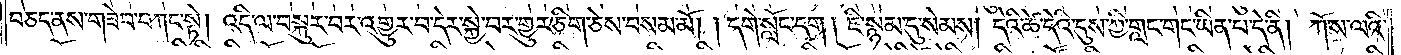བཅད་ནས་གཟེབ་བཀང་སྟེ། འདི་ལ་བསྐུར་བར་འགྱུར་བ་དེར་སྐྱེ་བར་གྱུར་ཅིག་ཅེས་བསམ་མོ། །དགེ་སློང་དག །ཇི་སྙམ་དུ་སེམས། དེའི་ཚེ་དེའི་དུས་ཀྱི་གླང་གང་ཡིན་པ་དེ་ནི། ཀོ་ས་ལའི་
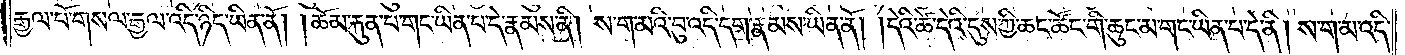རྒྱལ་པོ་གསལ་རྒྱལ་འདི་ཉིད་ཡིན་ནོ། །ཆོམ་རྐུན་པ་གང་ཡིན་པ་དེ་རྣམས་ནི། ས་ག་མའི་བུ་འདི་དག་རྣམས་ཡིན་ནོ། །དེའི་ཚེ་དེའི་དུས་ཀྱི་ཆང་ཚོང་གི་ཆུང་མ་གང་ཡིན་པ་དེ་ནི། ས་ག་མ་འདི་
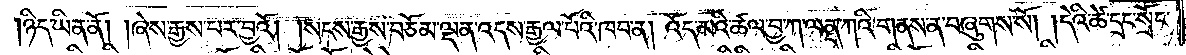།ཉིད་ཡིན་ནོ། །ཞེས་རྒྱས་པར་བྱའོ། །སངས་རྒྱས་བཅོམ་ལྡན་འདས་རྒྱལ་པོའི་ཁབ་ན། འོད་མའི་ཚལ་བྱ་ཀ་ལནྡ་ཀའི་གནས་ན་བཞུགས་སོ། །དེའི་ཚེ་དྲང་སྲོང་
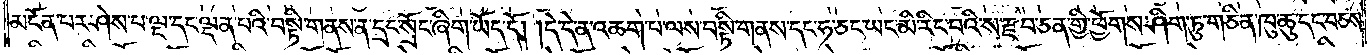མངོན་པར་ཤེས་པ་ལྔ་དང་ལྡན་པའི་བསྟི་གནས་ན་དྲང་སྲོང་ཞིག་ཡོད་དོ། །དེ་དེ་ན་འཆག་པ་ལས་བསྟི་གནས་དང་ཧ་ཅང་ཡང་མི་རིང་བའི་ས་རྫབ་ཅན་གྱི་ཕྱོགས་ཤིག་ཏུ་གཅིན་ཁུ་ཆུ་དང་བཅས་
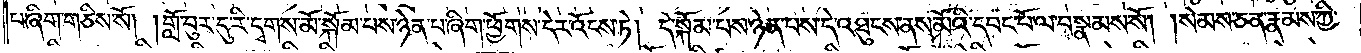པ་ཞིག་གཅིས་སོ། །གློ་བུར་དུ་རི་དྭགས་མོ་སྐོམ་པས་ཉེན་པ་ཞིག་ཕྱོགས་དེར་འོངས་ཏེ། དེ་སྐོམ་པས་ཉེན་པས་དེ་འཐུངས་ནས་མོའི་དབང་པོ་ལ་བསྣམས་སོ། །སེམས་ཅན་རྣམས་ཀྱི་
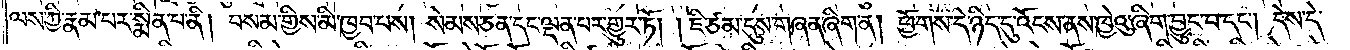ལས་ཀྱི་རྣམ་པར་སྨིན་པ་ནི། བསམ་གྱིས་མི་ཁྱབ་པས། སེམས་ཅན་དང་ལྡན་པར་གྱུར་ཏོ། །ཇི་ཙམ་དུས་གཞན་ཞིག་ན། ཕྱོགས་དེ་ཉིད་དུ་འོངས་ནས་ཁྱེའུ་ཞིག་བྱུང་བ་དང༌། དེས་དེ་
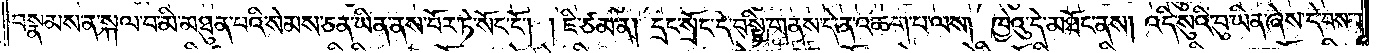བསྣམས་ན་སྐལ་བ་མི་མཐུན་པའི་སེམས་ཅན་ཡིན་ནས་བོར་ཏེ་སོང་ངོ༌། །ཇི་ཙམ་ན། དྲང་སྲོང་དེ་བསྟི་གནས་དེ་ན་འཆག་པ་ལས། ཁྱེའུ་དེ་མཐོང་ནས། འདི་སུའི་བུ་ཡིན་ཞེས་དེ་བསམ་
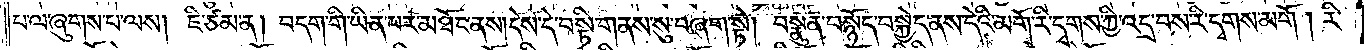པ་ལ་ཞུགས་པ་ལས། ཇི་ཙམ་ན། བདག་གི་ཡིན་པར་མཐོང་ནས།དེས་དེ་བསྟི་གནས་སུ་བཞག་སྟེ། བསྣུན་བསྙོད་བསྐྱེད་ནས་དེའི་མགོ་རི་དྭགས་ཀྱི་འདྲ་བས་རི་དྭགས་མགོ །རི་
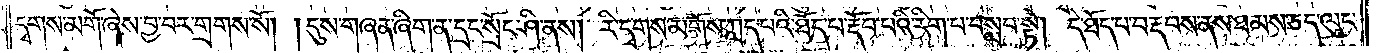དྭགས་མགོ་ཞེས་བྱ་བར་གྲགས་སོ། །དུས་གཞན་ཞིག་ན་དྲང་སྲོང་ཤི་ནས། རི་དྭགས་མགོས་ཀླད་པའི་ཐོད་པ་རྡོབ་པའི་རིག་པ་བསླབ་སྟེ། དེ་ཐོད་པ་བརྡབས་ནས་ཐམས་ཅད་ལུང་
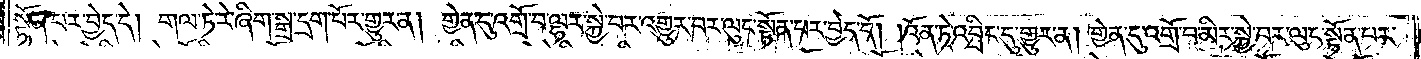སྟོན་པར་བྱེད་དེ། གལ་ཏེ་རེ་ཞིག་སྒྲ་དྲག་པོར་གྱུར་ན། གྱེན་དུ་འགྲོ་བ་ལྷར་སྐྱེ་བར་འགྱུར་བར་ལུང་སྟོན་པར་བྱེད་དོ། །འོན་ཏེ་འབྲིང་དུ་གྱུར་ན། གྱེན་དུ་འགྲོ་བ་མིར་སྐྱེ་བར་ལུང་སྟོན་པར་
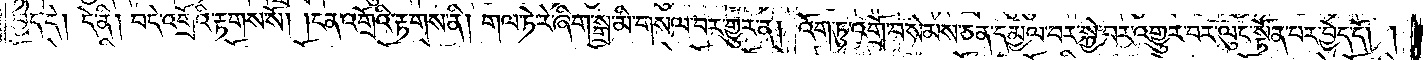བྱེད་དེ། དེ་ནི། བདེ་འགྲོའི་རྟགས་སོ། །ངན་འགྲོའི་རྟགས་ནི། གལ་ཏེ་རེ་ཞིག་སྒྲ་མི་གསལ་བར་གྱུར་ན། འོག་ཏུ་འགྲོ་བ་སེམས་ཅན་དམྱལ་བར་སྐྱེ་བར་འགྱུར་བར་ལུང་སྟོན་པར་བྱེད་དོ། །
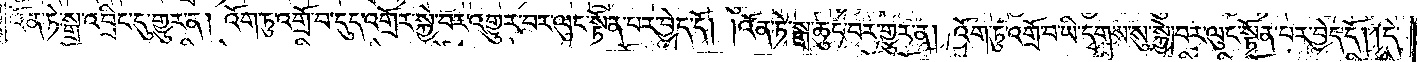འོན་ཏེ་སྒྲ་འབྲིང་དུ་གྱུར་ན། འོག་ཏུ་འགྲོ་བ་དུད་འགྲོར་སྐྱེ་བར་འགྱུར་བར་ལུང་སྟོན་པར་བྱེད་དོ། །འོན་ཏེ་སྒྲ་ཆུང་བར་གྱུར་ན། འོག་ཏུ་འགྲོ་བ་ཡི་དྭགས་སུ་སྐྱེ་བར་ལུང་སྟོན་པར་བྱེད་དོ། །དེ་
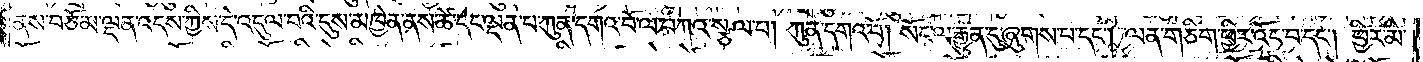ནས་བཅོམ་ལྡན་འདས་ཀྱིས་དེ་འདུལ་བའི་དུས་མཁྱེན་ནས་ཚེ་དང་ལྡན་པ་ཀུན་དགའ་བོ་ལ་བཀའ་སྩལ་པ། ཀུན་དགའ་བོ། སོང་ལ་རྒྱུན་དུ་ཞུགས་པ་དང༌། ལན་གཅིག་ཕྱིར་འོང་བ་དང༌། ཕྱིར་མི་
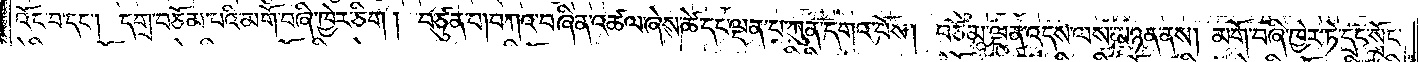འོང་བ་དང༌། དགྲ་བཅོམ་པའི་མགོ་བཞི་ཁྱེར་ཅིག །བཙུན་པ། བཀའ་བཞིན་འཚལ་ཞེས་ཚེ་དང་ལྡན་པ་ཀུན་དགའ་བོས། བཅོམ་ལྡན་འདས་ལས་མཉན་ནས། མགོ་བཞི་ཁྱེར་ཏེ་དྲང་སྲོང་
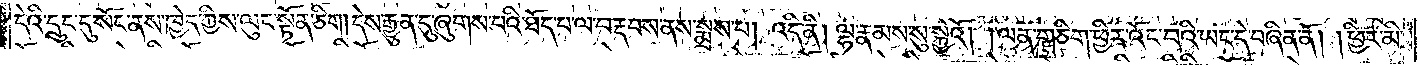དེའི་དྲུང་དུ་སོང་ནས་ཁྱེད་ཀྱིས་ལུང་སྟོན་ཅིག །དེས་རྒྱུན་དུ་ཞུགས་པའི་ཐོད་པ་ལ་བརྡབས་ནས་སྨྲས་པ། འདི་ནི། ལྷ་རྣམས་སུ་སྐྱེའོ། །ལན་གཅིག་ཕྱིར་འོང་བའི་ཡང་དེ་བཞིན་ནོ། །ཕྱིར་མི་
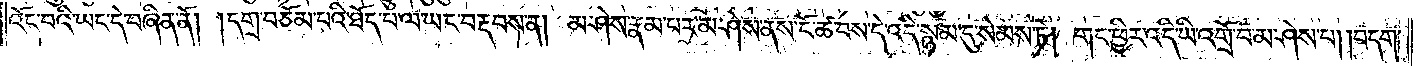འོང་བའི་ཡང་དེ་བཞིན་ནོ། །དགྲ་བཅོམ་པའི་ཐོད་པ་ལ་ཡང་བརྡབས་ན། མ་ཤེས་རྣམས་པར་མ་ཤེས་ནས་ངོ་ཚབས་དེ་འདི་སྙམ་དུ་སེམས་ཏེ། གང་ཕྱིར་འདི་ཡི་འགྲོ་བ་མ་ཤེས་པ། །བདག་
